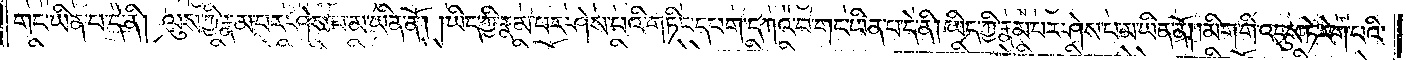གང་ཡིན་པ་དེ་ནི། ལུས་ཀྱི་རྣམ་པར་ཤེས་པ་མ་ཡིན་ནོ། །ཡིད་ཀྱི་རྣམ་པར་ཤེས་པའི་གཏིང་དཔག་དཀའ་བ་གང་ཡིན་པ་དེ་ནི། ཡིད་ཀྱི་རྣམ་པར་ཤེས་པ་མ་ཡིན་ནོ། །མིག་གི་འདུས་ཏེ་རེག་པའི་
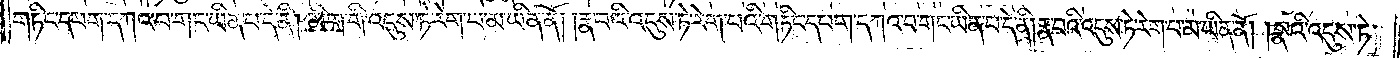གཏིང་དཔག་དཀའ་བ་གང་ཡིན་པ་དེ་ནི། མིག་གི་འདུས་ཏེ་རེག་པ་མ་ཡིན་ནོ། །རྣ་བའི་འདུས་ཏེ་རེག་པའི་གཏིང་དཔག་དཀའ་བ་གང་ཡིན་པ་དེ་ནི། རྣ་བའི་འདུས་ཏེ་རེག་པ་མ་ཡིན་ནོ། །སྣའི་འདུས་ཏེ་
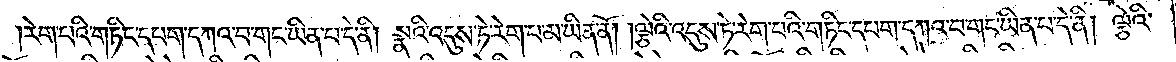རེག་པའི་གཏིང་དཔག་དཀའ་བ་གང་ཡིན་པ་དེ་ནི། སྣའི་འདུས་ཏེ་རེག་པ་མ་ཡིན་ནོ། །ལྕེའི་འདུས་ཏེ་རེག་པའི་གཏིང་དཔག་དཀའ་བ་གང་ཡིན་པ་དེ་ནི། ལྕེའི་
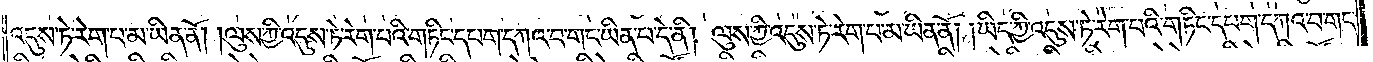འདུས་ཏེ་རེག་པ་མ་ཡིན་ནོ། །ལུས་ཀྱི་འདུས་ཏེ་རེག་པའི་གཏིང་དཔག་དཀའ་བ་གང་ཡིན་པ་དེ་ནི། ལུས་ཀྱི་འདུས་ཏེ་རེག་པ་མ་ཡིན་ནོ། །ཡིད་ཀྱི་འདུས་ཏེ་རེག་པའི་གཏིང་དཔག་དཀའ་བ་གང་
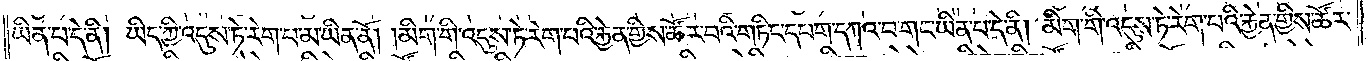ཡིན་པ་དེ་ནི། ཡིད་ཀྱི་འདུས་ཏེ་རེག་པ་མ་ཡིན་ནོ། །མིག་གི་འདུས་ཏེ་རེག་པའི་རྐྱེན་གྱིས་ཚོར་བའི་གཏིང་དཔག་དཀའ་བ་གང་ཡིན་པ་དེ་ནི། མིག་གི་འདུས་ཏེ་རེག་པའི་རྐྱེན་གྱིས་ཚོར་
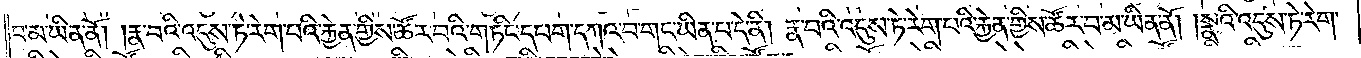བ་མ་ཡིན་ནོ། །རྣ་བའི་འདུས་ཏེ་རེག་པའི་རྐྱེན་གྱིས་ཚོར་བའི་གཏིང་དཔག་དཀའ་བ་གང་ཡིན་པ་དེ་ནི། རྣ་བའི་འདུས་ཏེ་རེག་པའི་རྐྱེན་གྱིས་ཚོར་བ་མ་ཡིན་ནོ། །སྣའི་འདུས་ཏེ་རེག་
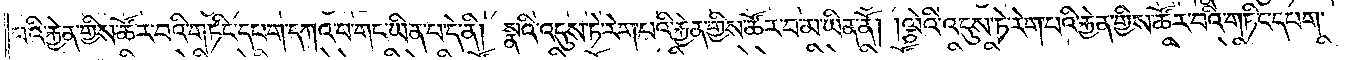པའི་རྐྱེན་གྱིས་ཚོར་བའི་གཏིང་དཔག་དཀའ་བ་གང་ཡིན་པ་དེ་ནི། སྣའི་འདུས་ཏེ་རེག་པའི་རྐྱེན་གྱིས་ཚོར་བ་མ་ཡིན་ནོ། །ལྕེའི་འདུས་ཏེ་རེག་པའི་རྐྱེན་གྱིས་ཚོར་བའི་གཏིང་དཔག་
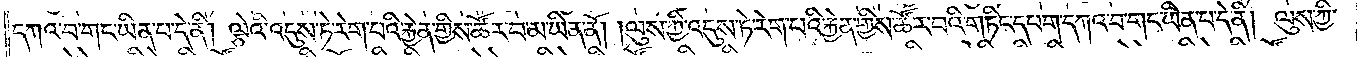དཀའ་བ་གང་ཡིན་པ་དེ་ནི། ལྕེའི་འདུས་ཏེ་རེག་པའི་རྐྱེན་གྱིས་ཚོར་བ་མ་ཡིན་ནོ། །ལུས་ཀྱི་འདུས་ཏེ་རེག་པའི་རྐྱེན་གྱིས་ཚོར་བའི་གཏིང་དཔག་དཀའ་བ་གང་ཡིན་པ་དེ་ནི། ལུས་ཀྱི་
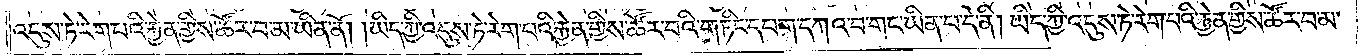འདུས་ཏེ་རེག་པའི་རྐྱེན་གྱིས་ཚོར་བ་མ་ཡིན་ནོ། །ཡིད་ཀྱི་འདུས་ཏེ་རེག་པའི་རྐྱེན་གྱིས་ཚོར་བའི་གཏིང་དཔག་དཀའ་བ་གང་ཡིན་པ་དེ་ནི། ཡིད་ཀྱི་འདུས་ཏེ་རེག་པའི་རྐྱེན་གྱིས་ཚོར་བ་མ་
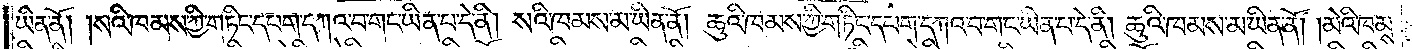ཡིན་ནོ། །སའི་ཁམས་ཀྱི་གཏིང་དཔག་དཀའ་བ་གང་ཡིན་པ་དེ་ནི། སའི་ཁམས་མ་ཡིན་ནོ། །ཆུའི་ཁམས་ཀྱི་གཏིང་དཔག་དཀའ་བ་གང་ཡིན་པ་དེ་ནི། ཆུའི་ཁམས་མ་ཡིན་ནོ། །མེའི་ཁམས་
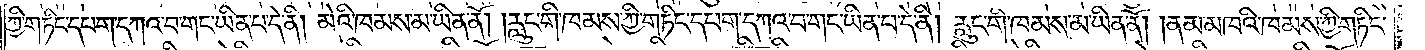ཀྱི་གཏིང་དཔག་དཀའ་བ་གང་ཡིན་པ་དེ་ནི། མེའི་ཁམས་མ་ཡིན་ནོ། །རླུང་གི་ཁམས་ཀྱི་གཏིང་དཔག་དཀའ་བ་གང་ཡིན་པ་དེ་ནི། རླུང་གི་ཁམས་མ་ཡིན་ནོ། །ནམ་མཁའི་ཁམས་ཀྱི་གཏིང་
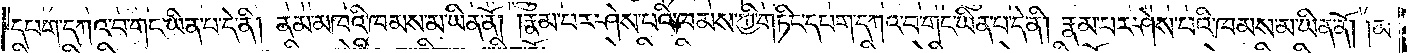དཔག་དཀའ་བ་གང་ཡིན་པ་དེ་ནི། ནམ་མཁའི་ཁམས་མ་ཡིན་ནོ། །རྣམ་པར་ཤེས་པའི་ཁམས་ཀྱི་གཏིང་དཔག་དཀའ་བ་གང་ཡིན་པ་དེ་ནི། རྣམ་པར་ཤེས་པའི་ཁམས་མ་ཡིན་ནོ། །མ་
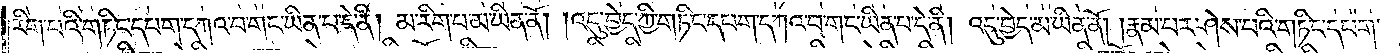རིག་པའི་གཏིང་དཔག་དཀའ་བ་གང་ཡིན་པ་དེ་ནི། མ་རིག་པ་མ་ཡིན་ནོ། །འདུ་བྱེད་ཀྱི་གཏིང་དཔག་དཀའ་བ་གང་ཡིན་པ་དེ་ནི། འདུ་བྱེད་མ་ཡིན་ནོ། །རྣམ་པར་ཤེས་པའི་གཏིང་དཔག་
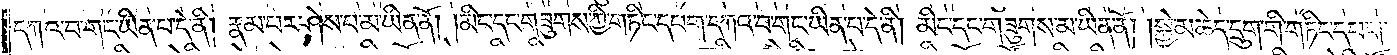དཀའ་བ་གང་ཡིན་པ་དེ་ནི། རྣམ་པར་ཤེས་པ་མ་ཡིན་ནོ། །མིང་དང་གཟུགས་ཀྱི་གཏིང་དཔག་དཀའ་བ་གང་ཡིན་པ་དེ་ནི། མིང་དང་གཟུགས་མ་ཡིན་ནོ། །སྐྱེ་མཆེད་དྲུག་གི་གཏིང་དཔག་
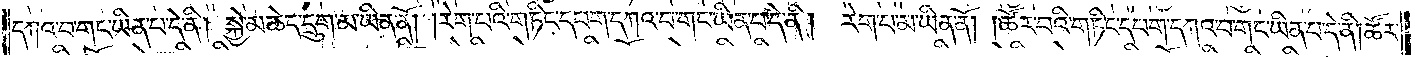དཀའ་བ་གང་ཡིན་པ་དེ་ནི། སྐྱེ་མཆེད་དྲུག་མ་ཡིན་ནོ། །རེག་པའི་གཏིང་དཔག་དཀའ་བ་གང་ཡིན་པ་དེ་ནི། རེག་པ་མ་ཡིན་ནོ། །ཚོར་བའི་གཏིང་དཔག་དཀའ་བ་གང་ཡིན་པ་དེ་ནི། ཚོར་
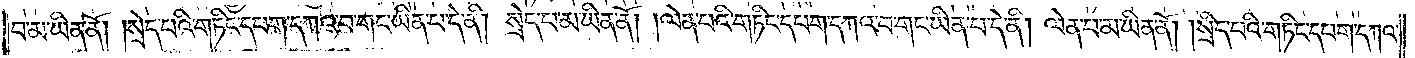བ་མ་ཡིན་ནོ། །སྲེད་པའི་གཏིང་དཔག་དཀའ་བ་གང་ཡིན་པ་དེ་ནི། སྲེད་པ་མ་ཡིན་ནོ། །ལེན་པའི་གཏིང་དཔག་དཀའ་བ་གང་ཡིན་པ་དེ་ནི། ལེན་པ་མ་ཡིན་ནོ། །སྲིད་པའི་གཏིང་དཔག་དཀའ་
